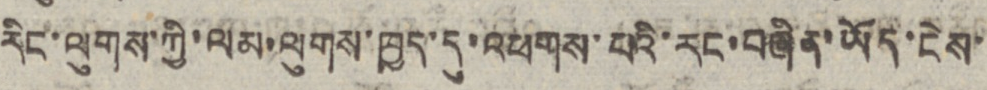རིང་ལུགས་ཀྱི་ལམ་ལུགས་ཁྱད་དུ་འཕགས་པའི་རང་བཞིན་ཡོད་ངེས་
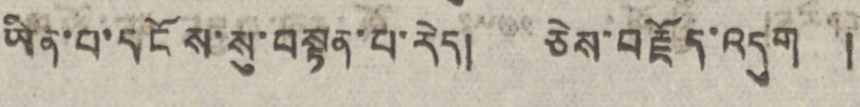ཡིན་པ་དངོས་སུ་བསྟན་པ་རེད། ཅེས་བརྗོད་འདུག །
